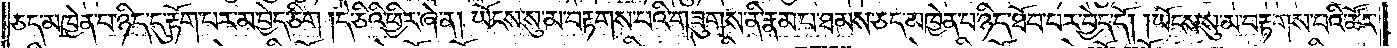ཅད་མཁྱེན་པ་ཉིད་དུ་རྟོག་པར་མ་བྱེད་ཅིག །དེ་ཅིའི་ཕྱིར་ཞེ་ན། ཡོངས་སུ་མ་བརྟགས་པའི་གཟུགས་ནི་རྣམ་པ་ཐམས་ཅད་མཁྱེན་པ་ཉིད་ཐོབ་པར་བྱེད་དོ། །ཡོངས་སུ་མ་བརྟགས་པའི་ཚོར་
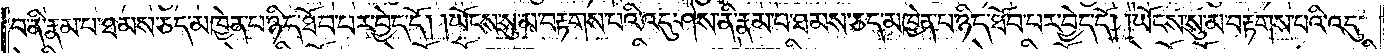བ་ནི་རྣམ་པ་ཐམས་ཅད་མཁྱེན་པ་ཉིད་ཐོབ་པར་བྱེད་དོ། །ཡོངས་སུ་མ་བརྟགས་པའི་འདུ་ཤེས་ནི་རྣམ་པ་ཐམས་ཅད་མཁྱེན་པ་ཉིད་ཐོབ་པར་བྱེད་དོ། །ཡོངས་སུ་མ་བརྟགས་པའི་འདུ་
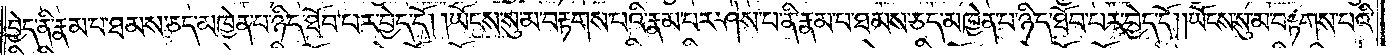བྱེད་ནི་རྣམ་པ་ཐམས་ཅད་མཁྱེན་པ་ཉིད་ཐོབ་པར་བྱེད་དོ། །ཡོངས་སུ་མ་བརྟགས་པའི་རྣམ་པར་ཤེས་པ་ནི་རྣམ་པ་ཐམས་ཅད་མཁྱེན་པ་ཉིད་ཐོབ་པར་བྱེད་དོ། །ཡོངས་སུ་མ་བརྟགས་པའི་
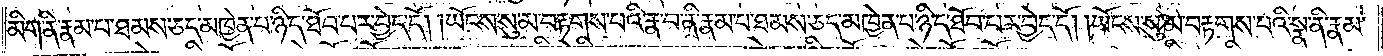མིག་ནི་རྣམ་པ་ཐམས་ཅད་མཁྱེན་པ་ཉིད་ཐོབ་པར་བྱེད་དོ། །ཡོངས་སུ་མ་བརྟགས་པའི་རྣ་བ་ནི་རྣམ་པ་ཐམས་ཅད་མཁྱེན་པ་ཉིད་ཐོབ་པར་བྱེད་དོ། །ཡོངས་སུ་མ་བརྟགས་པའི་སྣ་ནི་རྣམ་
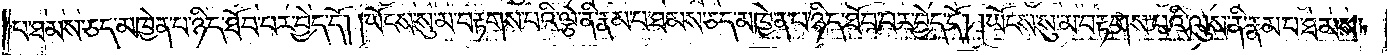པ་ཐམས་ཅད་མཁྱེན་པ་ཉིད་ཐོབ་པར་བྱེད་དོ། །ཡོངས་སུ་མ་བརྟགས་པའི་ལྕེ་ནི་རྣམ་པ་ཐམས་ཅད་མཁྱེན་པ་ཉིད་ཐོབ་པར་བྱེད་དོ། །ཡོངས་སུ་མ་བརྟགས་པའི་ལུས་ནི་རྣམ་པ་ཐམས་
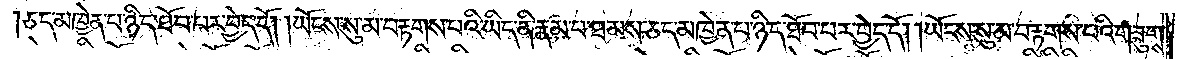ཅད་མཁྱེན་པ་ཉིད་ཐོབ་པར་བྱེད་དོ། །ཡོངས་སུ་མ་བརྟགས་པའི་ཡིད་ནི་རྣམས་པ་ཐམས་ཅད་མཁྱེན་པ་ཉིད་ཐོབ་པར་བྱེད་དོ། །ཡོངས་སུ་མ་བརྟགས་པའི་གཟུགས་
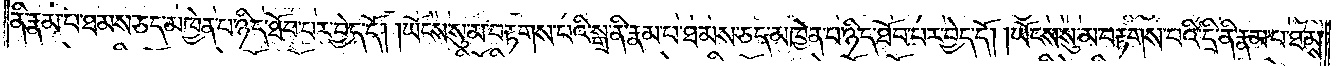ནི་རྣམ་པ་ཐམས་ཅད་མཁྱེན་པ་ཉིད་ཐོབ་པར་བྱེད་དོ། །ཡོངས་སུ་མ་བརྟགས་པའི་སྒྲ་ནི་རྣམ་པ་ཐམས་ཅད་མཁྱེན་པ་ཉིད་ཐོབ་པར་བྱེད་དོ། །ཡོངས་སུ་མ་བརྟགས་པའི་དྲི་ནི་རྣམ་པ་ཐམས་
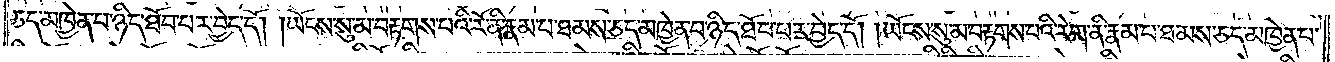ཅད་མཁྱེན་པ་ཉིད་ཐོབ་པར་བྱེད་དོ། །ཡོངས་སུ་མ་བརྟགས་པའི་རོ་ནི་རྣམ་པ་ཐམས་ཅད་མཁྱེན་པ་ཉིད་ཐོབ་པར་བྱེད་དོ། །ཡོངས་སུ་མ་བརྟགས་པའི་རེག་ནི་རྣམ་པ་ཐམས་ཅད་མཁྱེན་པ་
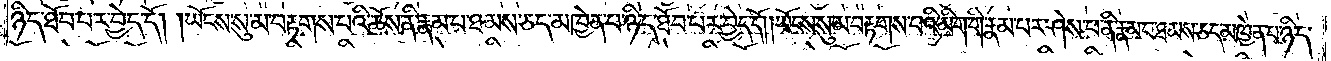ཉིད་ཐོབ་པར་བྱེད་དོ། །ཡོངས་སུ་མ་བརྟགས་པའི་ཆོས་ནི་རྣམ་པ་ཐམས་ཅད་མཁྱེན་པ་ཉིད་ཐོབ་པར་བྱེད་དོ། །ཡོངས་སུ་མ་བརྟགས་པའི་མིག་གི་རྣམ་པར་ཤེས་པ་ནི་རྣམ་པ་ཐམས་ཅད་མཁྱེན་པ་ཉིད་
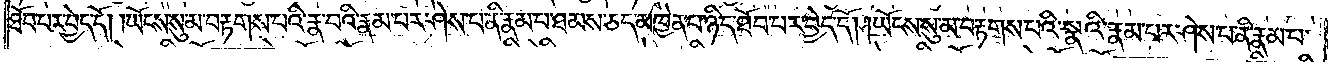ཐོབ་པར་བྱེད་དོ། །ཡོངས་སུ་མ་བརྟགས་པའི་རྣ་བའི་རྣམ་པར་ཤེས་པ་ནི་རྣམ་པ་ཐམས་ཅད་མཁྱེན་པ་ཉིད་ཐོབ་པར་བྱེད་དོ། །ཡོངས་སུ་མ་བརྟགས་པའི་སྣའི་རྣམ་པར་ཤེས་པ་ནི་རྣམ་པ་
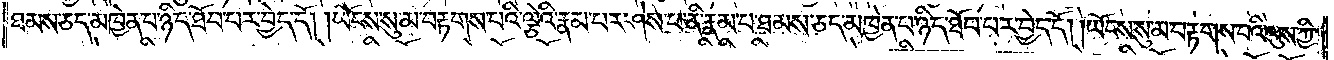ཐམས་ཅད་མཁྱེན་པ་ཉིད་ཐོབ་པར་བྱེད་དོ། །ཡོངས་སུ་མ་བརྟགས་པའི་ལྕེའི་རྣམ་པར་ཤེས་པ་ནི་རྣམ་པ་ཐམས་ཅད་མཁྱེན་པ་ཉིད་ཐོབ་པར་བྱེད་དོ། །ཡོངས་སུ་མ་བརྟགས་པའི་ལུས་ཀྱི་
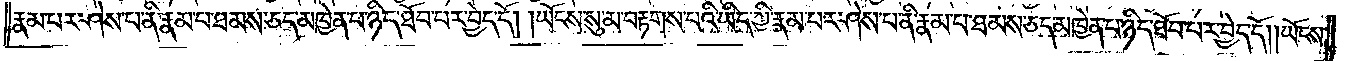རྣམ་པར་ཤེས་པ་ནི་རྣམ་པ་ཐམས་ཅད་མཁྱེན་པ་ཉིད་ཐོབ་པར་བྱེད་དོ། །ཡོངས་སུ་མ་བརྟགས་པའི་ཡིད་ཀྱི་རྣམ་པར་ཤེས་པ་ནི་རིམ་པ་ཐམས་ཅད་མཁྱེན་པ་ཉིད་ཐོབ་པར་བྱེད་དོ། །ཡོངས་
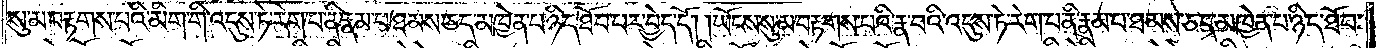སུ་མ་བརྟགས་པའི་མིག་གི་འདུས་ཏེ་རེག་པ་ནི་རྣམ་པ་ཐམས་ཅད་མཁྱེན་པ་ཉིད་ཐོབ་པར་བྱེད་དོ། །ཡོངས་སུ་མ་བརྟགས་པའི་རྣ་བའི་འདུས་ཏེ་རེག་པ་ནི་རྣམ་པ་ཐམས་ཅད་མཁྱེན་པ་ཉིད་ཐོབ་
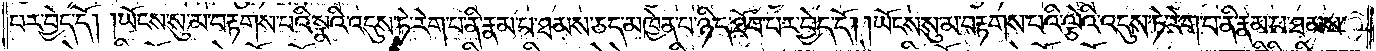པར་བྱེད་དོ། །ཡོངས་སུ་མ་བརྟགས་པའི་སྣའི་འདུས་ཏེ་རེག་པ་ནི་རྣམ་པ་ཐམས་ཅད་མཁྱེན་པ་ཉིད་ཐོབ་པར་བྱེད་དོ༎ ཡོངས་སུ་མ་བརྟགས་པའི་ལྕེའི་འདུས་ཏེ་རེག་པ་ནི་རྣམ་པ་ཐམས་
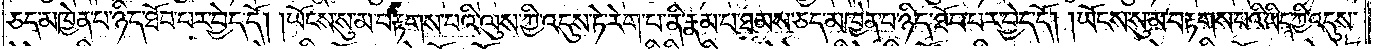ཅད་མཁྱེན་པ་ཉིད་ཐོབ་པར་བྱེད་དོ། །ཡོངས་སུ་མ་བརྟགས་པའི་ལུས་ཀྱི་འདུས་ཏེ་རེག་པ་ནི་རྣམ་པ་ཐམས་ཅད་མཁྱེན་པ་ཉིད་ཐོབ་པར་བྱེད་དོ། །ཡོངས་སུ་མ་བརྟགས་པའི་ཡིད་ཀྱི་འདུས་
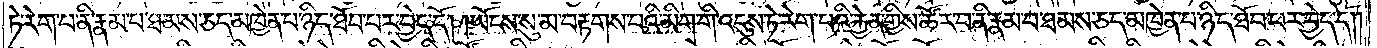ཏེ་རེག་པ་ནི་རྣམ་པ་ཐམས་ཅད་མཁྱེན་པ་ཉིད་ཐོབ་པར་བྱེད་དོ། །ཡོངས་སུ་མ་བརྟགས་པའི་མིག་གི་འདུས་ཏེ་རེག་པའི་རྐྱེན་གྱིས་ཚོར་བ་ནི་རྣམ་པ་ཐམས་ཅད་མཁྱེན་པ་ཉིད་ཐོབ་པར་བྱེད་དོ༎
